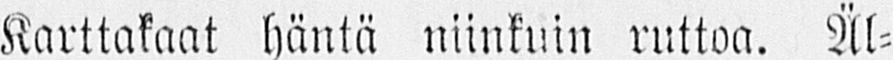Karttakaat häntä niinkuin ruttoa. Äl-
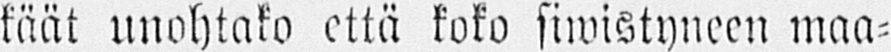käät unohtako että koko siwistyneen maa-
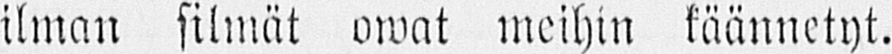ilman silmät owat meihin käännetyt.
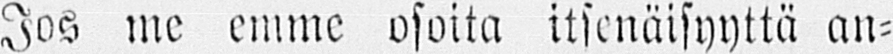Jos me emme osoita itsenäisyyttä an-
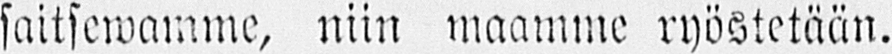saitsewamme, niin maamme ryöstetään.
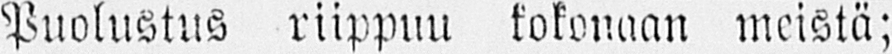Puolustus riippuu kokonaan meistä;
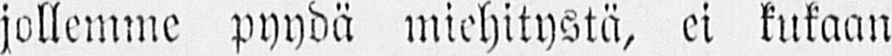jollemme pyydä miehitystä, ei kukaan
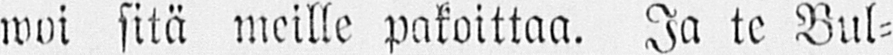woi sitä meille pakoittaa. Ja te Bul-
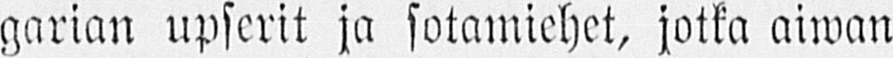garian upscrit ja sotamiehet, jotka äiwan
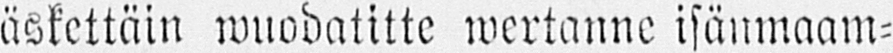äskettäin wuodatitte werkanne isänmaam-
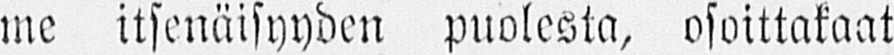me itsenäisyyden puolesta, osoittakaat
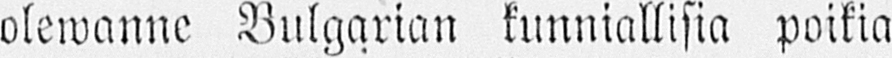olewanne Bulgarian kunniallisia poikia
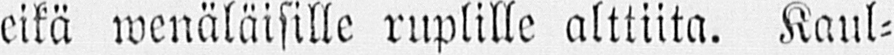eikä wenäläisille ruplille alttiita. Kaul-
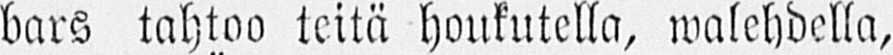bars tahtoo teitä houkutella, walehdella,
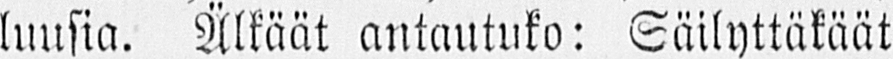luusia. Älkäät antautuko: Säilyttäkäät
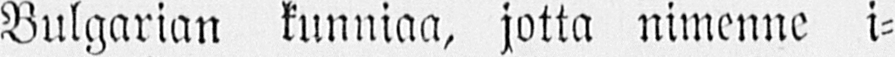Bulgarian kunniaa, jotta nimenne i-
